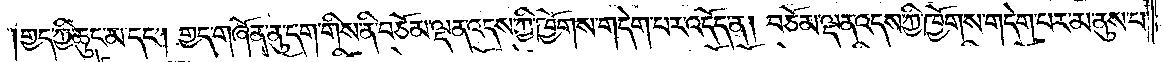།གྱད་ཀྱི་ཆུང་མ་དང༌། གྱད་གཞོན་ནུ་དག་གིས་ནི་བཅོམ་ལྡན་འདས་ཀྱི་ཁྱོགས་གདེག་པར་འདོད་ན། བཅོམ་ལྡན་འདས་ཀྱི་ཁྱོགས་གདེག་པར་མ་ནུས་པ་
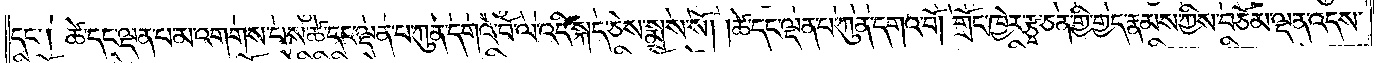དང༌། ཚེ་དང་ལྡན་པ་མ་འགགས་པས་ཚེ་དང་ལྡན་པ་ཀུན་དགའ་བོ་ལ་འདི་སྐད་ཅེས་སྨྲས་སོ། །ཚེ་དང་ལྡན་པ་ཀུན་དགའ་བོ། གྲོང་ཁྱེར་རྩྭ་ཅན་གྱི་གྱད་རྣམས་ཀྱིས་བཅོམ་ལྡན་འདས་
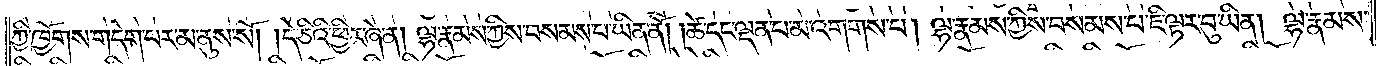ཀྱི་ཁྱོགས་གདེག་པར་མ་ནུས་སོ། །དེ་ཅིའི་ཕྱིར་ཞེ་ན། ལྷ་རྣམས་ཀྱིས་བསམས་པ་ཡིན་ནོ། །ཚེ་དང་ལྡན་པ་མ་འགགས་པ། ལྷ་རྣམས་ཀྱིས་བསམས་པ་ཇི་ལྟར་བུ་ཡིན། ལྷ་རྣམས་
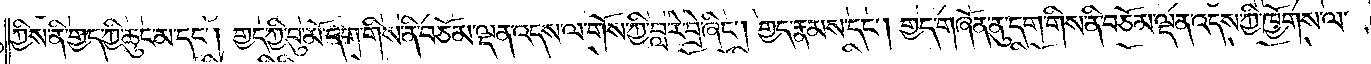ཀྱིས་ནི་གྱད་ཀྱི་ཆུང་མ་དང༌། གྱད་ཀྱི་བུ་མོ་དག་གིས་ནི་བཅོམ་ལྡན་འདས་ལ་གོས་ཀྱི་བླ་རེ་བྲེ་ཞིང༌། གྱད་རྣམས་དང༌། གྱད་གཞོན་ནུ་དག་གིས་ནི་བཅོམ་ལྡན་འདས་ཀྱི་ཁྱོགས་ལ་
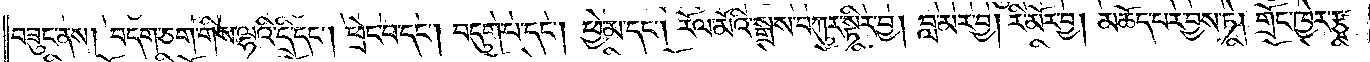བཟུང་ནས། བདག་ཅག་གིས་ལྷའི་དྲི་དང༌། ཕྲེང་བ་དང༌། བདུག་པ་དང༌། ཕྱེ་མ་དང༌། རོལ་མོའི་སྒྲས་བཀུར་སྟིར་བྱ། བླ་མར་བྱ། རི་མོར་བྱ། མཆོད་པར་བྱས་ཏེ། གྲོང་ཁྱེར་རྩྭ་
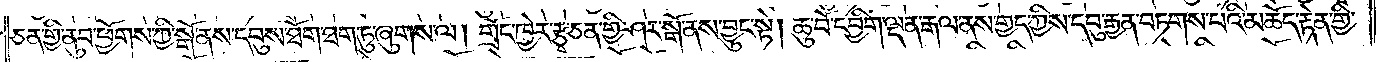ཅན་གྱི་ནུབ་ཕྱོགས་ཀྱི་སྒོ་ནས་དབུས་ཐོག་ཐག་ཏུ་ཞུགས་ལ། གྲོང་ཁྱེར་རྩྭ་ཅན་གྱི་ཤར་སྒོ་ནས་བྱུང་སྟེ། ཆུ་བོ་དབྱིག་ལྡན་རྒལ་ནས་གྱད་ཀྱིས་དབུ་རྒྱན་བཏགས་པའི་མཆོད་རྟེན་གྱི་
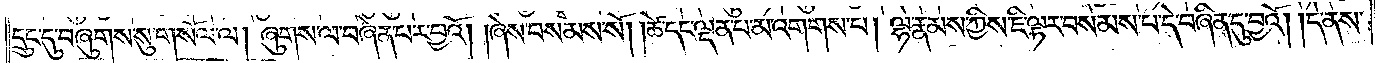དྲུང་དུ་བཞུགས་སུ་གསོལ་ལ། ཞུགས་ལ་བཞེན་པར་བྱའོ། །ཞེས་བསམས་སོ། །ཚེ་དང་ལྡན་པ་མ་འགགས་པ། ལྷ་རྣམས་ཀྱིས་ཇི་ལྟར་བསམས་པ་དེ་བཞིན་དུ་བྱའོ། །དེ་ནས་
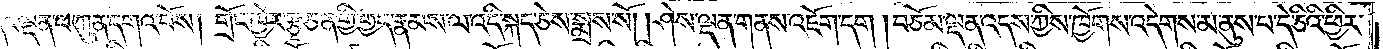།ཚེ་དང་ལྡན་པ་ཀུན་དགའ་བོས། གྲོང་ཁྱེར་རྩྭ་ཅན་གྱི་གྱད་རྣམས་ལ་འདི་སྐད་ཅེས་སྨྲས་སོ། །ཤེས་ལྡན་གནས་འཇོག་དག །བཅོམ་ལྡན་འདས་ཀྱིས་ཁྱོགས་འདེགས་མ་ནུས་པ་དེ་ཅིའི་ཕྱིར་
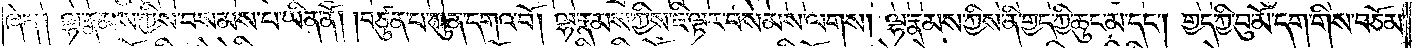ཞེ་ན། ལྷ་རྣམས་ཀྱིས་བསམས་པ་ཡིན་ནོ། །བཙུན་པ་ཀུན་དགའ་བོ། ལྷ་རྣམས་ཀྱིས་ཇི་ལྟར་བསམས་ལགས། ལྷ་རྣམས་ཀྱིས་ནི་གྱད་ཀྱི་ཆུང་མ་དང༌། གྱད་ཀྱི་བུ་མོ་དག་གིས་བཅོམ་
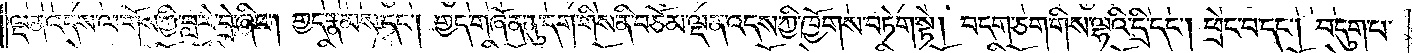ལྡན་འདས་ལ་གོས་ཀྱི་བླ་རེ་བྲེ་ཞིང༌། གྱད་རྣམས་དང༌། གྱད་གཞོན་ནུ་དག་གིས་ནི་བཅོམ་ལྡན་འདས་ཀྱི་ཁྱོགས་བཏེག་སྟེ། བདག་ཅག་གིས་ལྷའི་དྲི་དང༌། ཕྲེང་བ་དང༌། བདུག་པ་
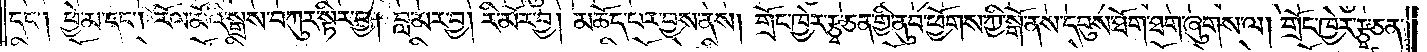དང༌། ཕྱེ་མ་དང༌། རོལ་མོའི་སྒྲས་བཀུར་སྟིར་བྱ། བླ་མར་བྱ། རི་མོར་བྱ། མཆོད་པར་བྱས་ནས། གྲོང་ཁྱེར་རྩྭ་ཅན་གྱི་ནུབ་ཕྱོགས་ཀྱི་སྒོ་ནས་དབུས་ཐོག་ཐག་ཞུགས་ལ། གྲོང་ཁྱེར་རྩྭ་ཅན་
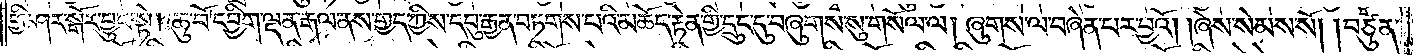གྱི་ཤར་སྒོར་བྱུང་སྟེ། ཆུ་བོ་དབྱིག་ལྡན་རྒལ་ནས་གྱད་ཀྱིས་དབུ་རྒྱན་བཏགས་པའི་མཆོད་རྟེན་གྱི་དྲུང་དུ་བཞུགས་སུ་གསོལ་ལ། ཞུགས་ལ་བཞེན་པར་བྱའོ། །ཞེས་སེམས་སོ། །བཙུན་
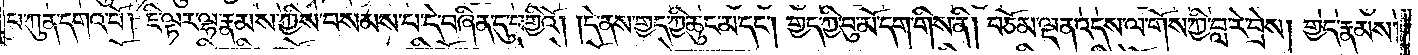པ་ཀུན་དགའ་བོ། ཇི་ལྟར་ལྷ་རྣམས་ཀྱིས་བསམས་པ་དེ་བཞིན་དུ་བགྱིའོ། །དེ་ནས་གྱད་ཀྱི་ཆུང་མ་དང༌། གྱད་ཀྱི་བུ་མོ་དག་གིས་ནི། བཅོམ་ལྡན་འདས་ལ་གོས་ཀྱི་བླ་རེ་བྲེས། གྱད་རྣམས་
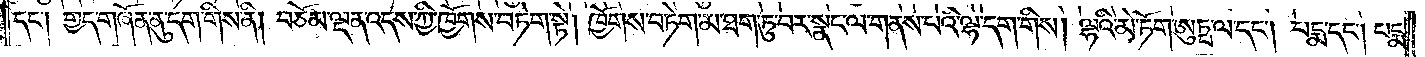དང༌། གྱད་གཞོན་ནུ་དག་གིས་ནི། བཅོམ་ལྡན་འདས་ཀྱི་ཁྱོགས་བཏག་སྟེ། ཁྱོགས་བཏེག་མ་ཐག་ཏུ་བར་སྣང་ལ་གནས་པའི་ལྷ་དག་གིས། ལྷའི་མེ་ཏོག་ཨུཏྤ་ལ་དང༌། པདྨ་དང༌། པདྨ་
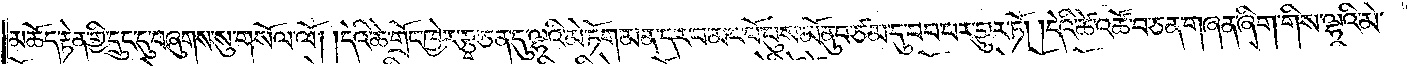མཆོད་རྟེན་གྱི་དྲུང་དུ་བཞུགས་སུ་གསོལ་ལོ། །དེའི་ཚེ་གྲོང་ཁྱེར་རྩྭ་ཅན་དུ་ལྷའི་མེ་ཏོག་མན་ད་ར་བ་མང་པོ་པུས་མོ་ནུབ་ཙམ་དུ་བབ་པར་གྱུར་ཏོ། །དེའི་ཚེ་འཚོ་བ་ཅན་གཞན་ཞིག་གིས་ལྷའི་མེ་
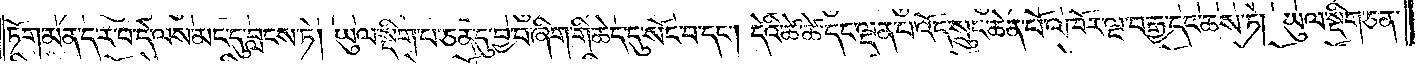ཏོག་མན་ད་ར་བ་དེ་ལས་མང་དུ་བླངས་ཏེ། ཡུལ་སྡིག་པ་ཅན་དུ་བྱ་བ་ཞིག་གི་ཆེད་དུ་སོང་བ་དང༌། དེའི་ཚེ་དང་ལྡན་པ་འོད་སྲུང་ཆེན་པོ་འཁོར་ལྔ་བརྒྱ་དང་ཆས་ཏེ། ཡུལ་སྡིག་ཅན་
